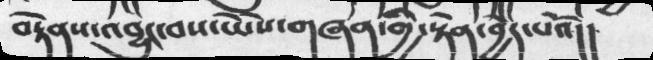བརྟེནས་འབྱུང་བས་ཡེེས་གཞན་གྱི་སྟེན་བྱེད་པའོ།།
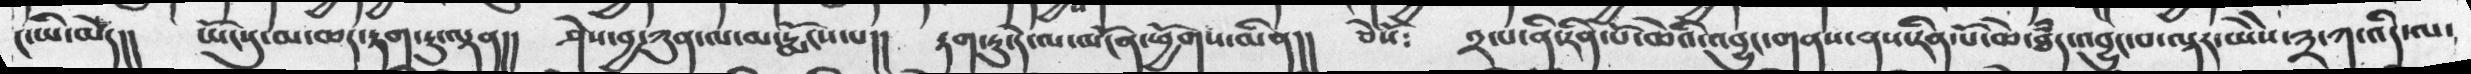ང་ཡི་་མེད།།    ཡོངསུ་མ་ཆད་རྟག་ཏུ་ལྡན།།     ཤེས་བྱ་ཀུན་ལ་མ་རྨོངས་པ།།    རྟག་ཏུ་དེ་ལ་མངོན་ཕྱོགས་མིན།།   ཅེསོ་  ༢་པ་ནི་རིན་པོ་ཆེའི་འབྱུང་གནས་ནས་རིན་པོ་ཆེ་ཐཾད་འབྱུང་པ་ལྟར་ཡེེས་༣་ཀ་འདི་ལ་
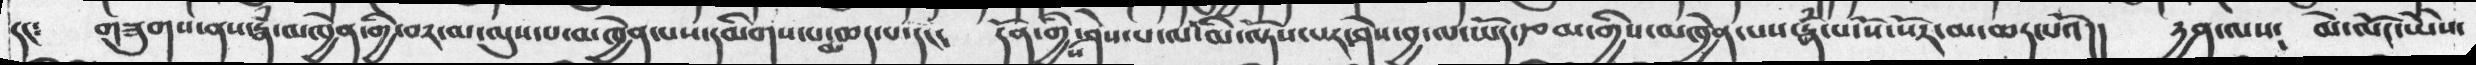དང༴   གཟུགས་ནས་རྣཾ་མཁྱེན་གྱི་བར་མ་ལུས་པ་མཁྱེན་པས་དམིགས་པ་མ་ཆད་པ་དང༴   དོན་གྱིས་ཤེས་པ་ལ་མི་ལྟོས་པར་ཤེས་བྱ་ལ་ཡོད་རྩམ་གྱིས་མཁྱེན་པས་རྣཾ་པ་སོ་སོར་མ་ཆད་པའོ།།   རྱན་ལས༴   མེ་ལོང་ཡེེས་
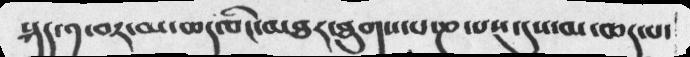སྐད་༡་བར་མ་ཆད་ཅིང་མཐར་ཐུགས་པ་ཎ་པས་དུས་མ་ཆད་པ་
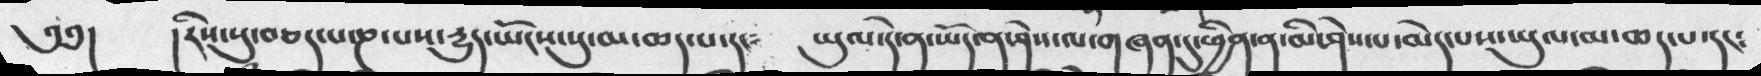།  རིས་སུ་བཅད་པ་ཎ་པས་རྱུད་ཡོངས་སུ་མ་ཆད་པ་དང༴     ཡུལ་དེ་ན་ཡོད་ན་ཤེས་ལ་གཞན་དུ་ཕྱིན་ན་མི་ཤེས་པ་མེད་པས་ཡུལ་མ་ཆད་པ་དང༴
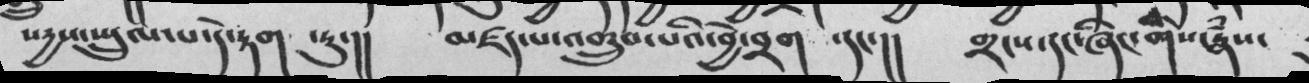སདྱས་སྤྲུལ་པ་དེ་རྟག་ཏུ་།།  མཛད་པ་འགྲུབ་པའི་བྱེ་བྲག  ་དང་།།  གྲངས་དང་ཞིང་གིས་རྣཾས་
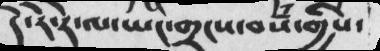དེ་རེ་རེ་ལ་ཡང་གྲངས་བསཾ་གྱིས་
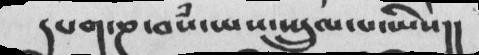དཔག་ཎ་བསཾ་ཡས་སྤྲུལ་པ་ཡིས།།
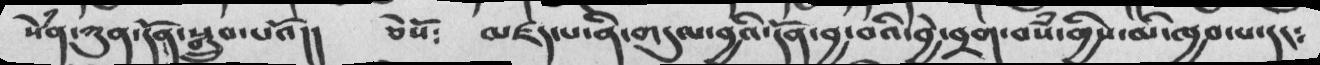སེཾན་ཀུན་དོན་སྒྲུབ་པའོ།།  ཅེསོ༴  མཛད་པ་ནི་གདུལ་བྱའི་དོན་བྱ་བའི་བྱེ་བྲག་བསཾ་གྱིས་མི་ཁྱབ་པ་དང༴
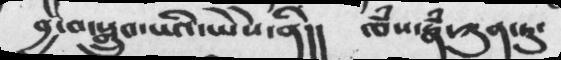བྱ་བ་སྒྲུབ་པའི་ཡེེས་ནི།།  ཁཾས་རྣཾ་ཀུན་ཏུ་
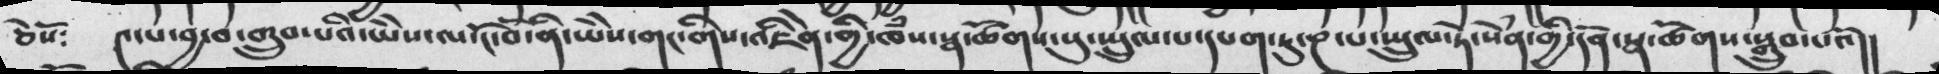ཅེསོ༴  ༤་པ་བྱ་བ་གྲུབ་པའི་ཡེེས་ལ་ངོ་བོ་ནི་ཡེེས་གང་གིས་འཇིེན་གྱི་ཁཾས་སྣ་ཚོགས་སུ་སྤྲུལ་པ་དཔག་ཏུ་ཎ་པ་སྤྲུལ་ཏེ་སེཾན་གྱི་དོན་སྣ་ཚོགས་སྒྲུབ་པའོ།།
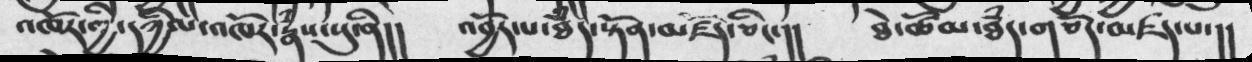འཁོར་གྱི་དཀྱིལ་འཁོར་རྣཾས་སུ་ནི།།  འབྱོར་པ་ཐཾད་སྟོན་མཛོད་ཅིང་།།   ཐེ་ཚོམ་ཐཾད་གཅོད་མཛད་པ་།།
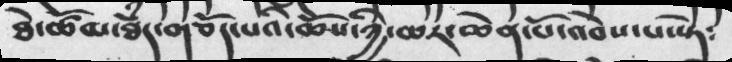ཐེ་ཚོམ་ཐཾད་གཅོད་པའི་ཆོས་ཀྱི་ཆར་ཆེན་པོ་འབེས་པ་སྟེ༴
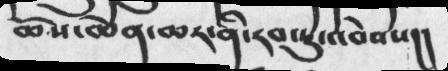ཆོས་ཆེན་ཆར་ནི་རབ་ཏུ་འབེབས།།
